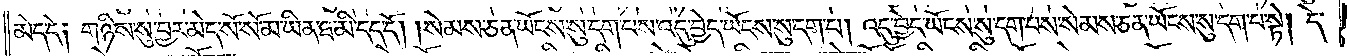མེད་དེ༑ གཉིས་སུ་བྱར་མེད་སོ་སོ་མ་ཡིན་ཐ་མི་དད་དོ། །སེམས་ཅན་ཡོངས་སུ་དག་པས་འདུ་བྱེད་ཡོངས་སུ་དག་པ། འདུ་བྱེད་ཡོངས་སུ་དག་པས་སེམས་ཅན་ཡོངས་སུ་དག་པ་སྟེ། དེ་
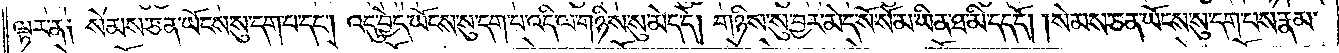ལྟར་ན༑ སེམས་ཅན་ཡོངས་སུ་དག་པ་དང༌། འདུ་བྱེད་ཡོངས་སུ་དག་པ་འདི་ལ་གཉིས་སུ་མེད་དེ། གཉིས་སུ་བྱར་མེད་སོ་སོ་མ་ཡིན་ཐ་མི་དད་དོ། །སེམས་ཅན་ཡོངས་སུ་དག་པས་རྣམ་
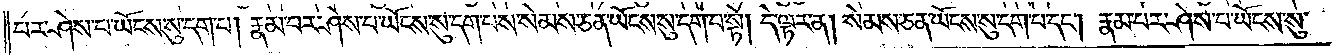པར་ཤེས་པ་ཡོངས་སུ་དག་པ། རྣམ་པར་ཤེས་པ་ཡོངས་སུ་དག་པས་སེམས་ཅན་ཡོངས་སུ་དག་པ་སྟེ། དེ་ལྟར་ན། སེམས་ཅན་ཡོངས་སུ་དག་པ་དང༌། རྣམ་པར་ཤེས་པ་ཡོངས་སུ་
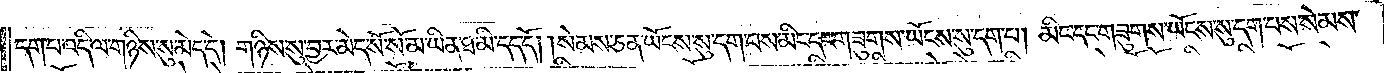དག་པ་འདི་ལ་གཉིས་སུ་མེད་དེ། གཉིས་སུ་བྱར་མེད་སོ་སོ་མ་ཡིན་ཐ་མི་དད་དོ། །སེམས་ཅན་ཡོངས་སུ་དག་པས་མིང་དང་གཟུགས་ཡོངས་སུ་དག་པ། མིང་དང་གཟུགས་ཡོངས་སུ་དག་པས་སེམས་
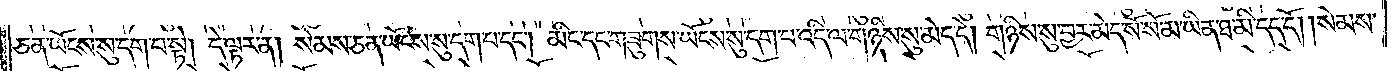ཅན་ཡོངས་སུ་དག་པ་སྟེ། དེ་ལྟར་ན། སེམས་ཅན་ཡོངས་སུ་དག་པ་དང༌། མིང་དང་གཟུགས་ཡོངས་སུ་དག་པ་འདི་ལ་གཉིས་སུ་མེད་དེ། གཉིས་སུ་བྱར་མེད་སོ་སོ་མ་ཡིན་ཐ་མི་དད་དོ། །སེམས་
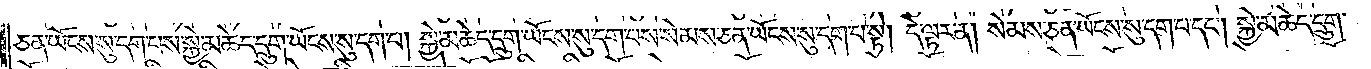ཅན་ཡོངས་སུ་དག་པས་སྐྱེ་མཆེད་དྲུག་ཡོངས་སུ་དག་པ། སྐྱེ་མཆེད་དྲུག་ཡོངས་སུ་དག་པས་སེམས་ཅན་ཡོངས་སུ་དག་པ་སྟེ། དེ་ལྟར་ན། སེམས་ཅན་ཡོངས་སུ་དག་པ་དང༌། སྐྱེ་མཆེད་དྲུག་
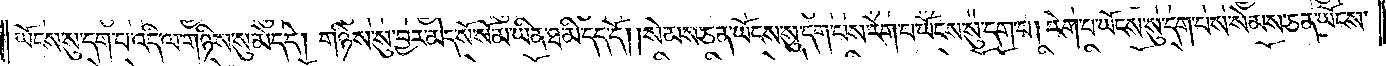ཡོངས་སུ་དག་པ་འདི་ལ་གཉིས་སུ་མེད་དེ། གཉིས་སུ་བྱར་མེད་སོ་སོ་མ་ཡིན་ཐ་མི་དད་དོ། །སེམས་ཅན་ཡོངས་སུ་དག་པས་རེག་པ་ཡོངས་སུ་དག་པ། རེག་པ་ཡོངས་སུ་དག་པས་སེམས་ཅན་ཡོངས་
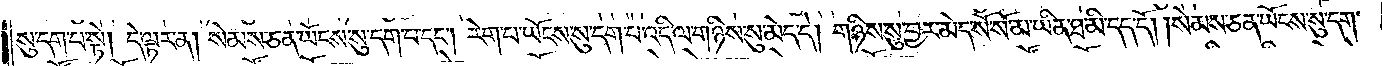སུ་དག་པ་སྟེ། དེ་ལྟར་ན། སེམས་ཅན་ཡོངས་སུ་དག་པ་དང༌། རེག་པ་ཡོངས་སུ་དག་པ་འདི་ལ་གཉིས་སུ་མེད་དེ། གཉིས་སུ་བྱར་མེད་སོ་སོ་མ་ཡིན་ཐ་མི་དད་དོ། །སེམས་ཅན་ཡོངས་སུ་དག་
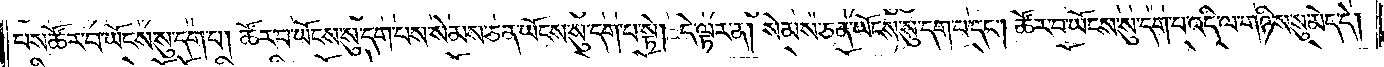པས་ཚོར་བ་ཡོངས་སུ་དག་པ། ཚོར་བ་ཡོངས་སུ་དག་པས་སེམས་ཅན་ཡོངས་སུ་དག་པ་སྟེ། དེ་ལྟར་ན། སེམས་ཅན་ཡོངས་སུ་དག་པ་དང༌། ཚོར་བ་ཡོངས་སུ་དག་པ་འདི་ལ་གཉིས་སུ་མེད་དེ།
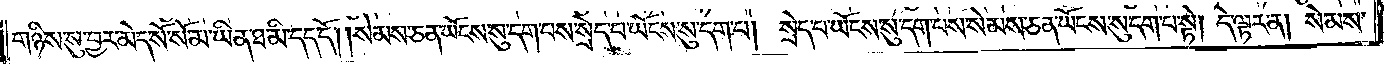གཉིས་སུ་བྱར་མེད་སོ་སོ་མ་ཡིན་ཐ་མི་དད་དོ། །སེམས་ཅན་ཡོངས་སུ་དག་པས་སྲེད་པ་ཡོངས་སུ་དག་པ། སྲེད་པ་ཡོངས་སུ་དག་པས་སེམས་ཅན་ཡོངས་སུ་དག་པ་སྟེ། དེ་ལྟར་ན། སེམས་
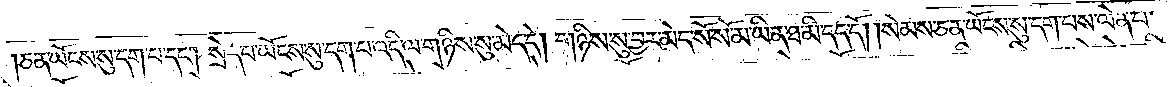ཅན་ཡོངས་སུ་དག་པ་དང༌། སྲེད་པ་ཡོངས་སུ་དག་པ་འདི་ལ་གཉིས་སུ་མེད་དེ། གཉིས་སུ་བྱར་མེད་སོ་སོ་མ་ཡིན་ཐ་མི་དད་དོ། །སེམས་ཅན་ཡོངས་སུ་དག་པས་ལེན་པ་
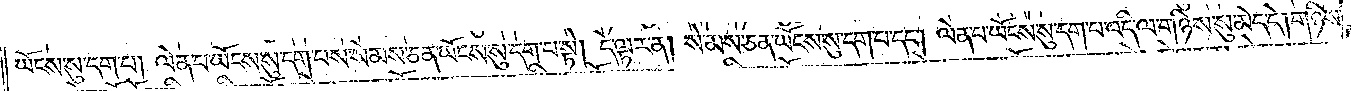ཡོངས་སུ་དག་པ། ལེན་པ་ཡོངས་སུ་དག་པས་སེམས་ཅན་ཡོངས་སུ་དག་པ་སྟེ། དེ་ལྟར་ན། སེམས་ཅན་ཡོངས་སུ་དག་པ་དང༌། ལེན་པ་ཡོངས་སུ་དག་པ་འདི་ལ་གཉིས་སུ་མེད་དེ། གཉིས་
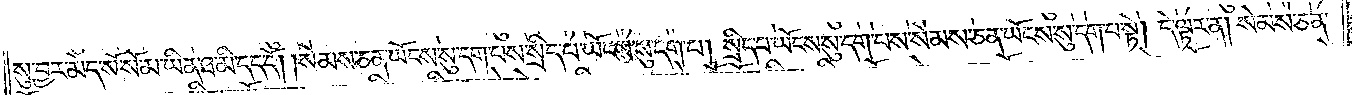སུ་བྱར་མེད་སོ་སོ་མ་ཡིན་ཐ་མི་དད་དོ། །སེམས་ཅན་ཡོངས་སུ་དག་པས་སྲིད་པ་ཡོངས་སུ་དག་པ། སྲིད་པ་ཡོངས་སུ་དག་པས་སེམས་ཅན་ཡོངས་སུ་དག་པ་སྟེ། དེ་ལྟར་ན། སེམས་ཅན་
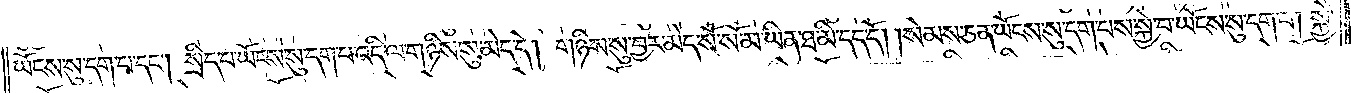ཡོངས་སུ་དག་པ་དང༌། སྲིད་པ་ཡོངས་སུ་དག་པ་འདི་ལ་གཉིས་སུ་མེད་དེ། གཉིས་སུ་བྱར་མེད་སོ་སོ་མ་ཡིན་ཐ་མི་དད་དོ། །སེམས་ཅན་ཡོངས་སུ་དག་པས་སྐྱེ་བ་ཡོངས་སུ་དག་པ། སྐྱེ་
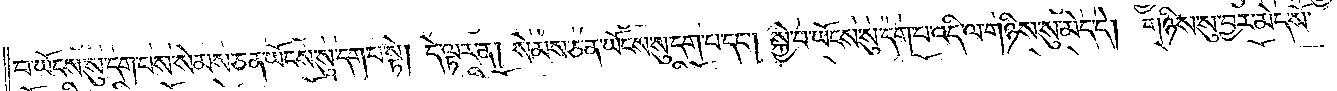བ་ཡོངས་སུ་དག་པས་སེམས་ཅན་ཡོངས་སུ་དག་པ་སྟེ། དེ་ལྟར་ན། སེམས་ཅན་ཡོངས་སུ་དག་པ་དང༌། སྐྱེ་བ་ཡོངས་སུ་དག་པ་འདི་ལ་གཉིས་སུ་མེད་དེ། གཉིས་སུ་བྱར་མེད་སོ་
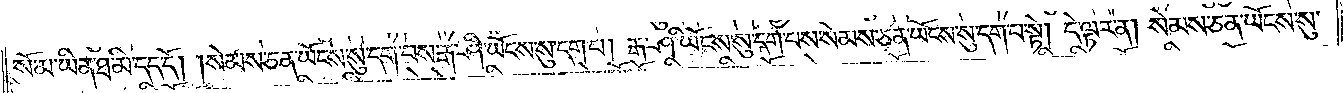སོ་མ་ཡིན་ཐ་མི་དད་དོ། །སེམས་ཅན་ཡོངས་སུ་དག་པས་རྒ་ཤི་ཡོངས་སུ་དག་པ། རྒ་ཤི་ཡོངས་སུ་དག་པས་སེམས་ཅན་ཡོངས་སུ་དག་པ་སྟེ། དེ་ལྟར་ན། སེམས་ཅན་ཡོངས་སུ་
